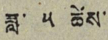ཟླ་ ༥ ཚེས་
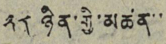༢༨ ཉིན་གྱི་མཚན་་
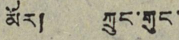མོར། ཀྲུང་གུང་
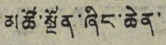མཚོ་སྔོན་ཞིང་ཆེན་
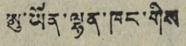ཨུ་ཡོན་ལྷན་ཁང་གིས
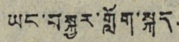ཡང་བསྐྱར་གློག་སྐད
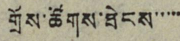གྲོས་ཚོགས་ཐེངས་་་་་
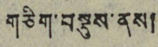གཅིག་བསྡུས་ནས།
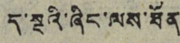ད་སྔའི་ཞིང་ལས་ཐོན་
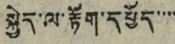སྐྱེད་ལ་རྟོག་དཔྱོད་་་་
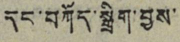དང་བཀོད་སྒྲིག་བྱས་
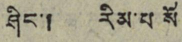ཤིང་། རིམ་པ སོ
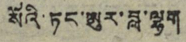སོའི་ཏང་ཨུར་བླ་ལྷག
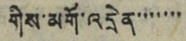གིས་མགོ་འདྲེན་་་་་་་
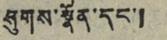ཤུགས་སྣོན་དང་།
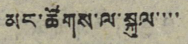མང་ཚོགས་ལ་སྐུལ་་་་
